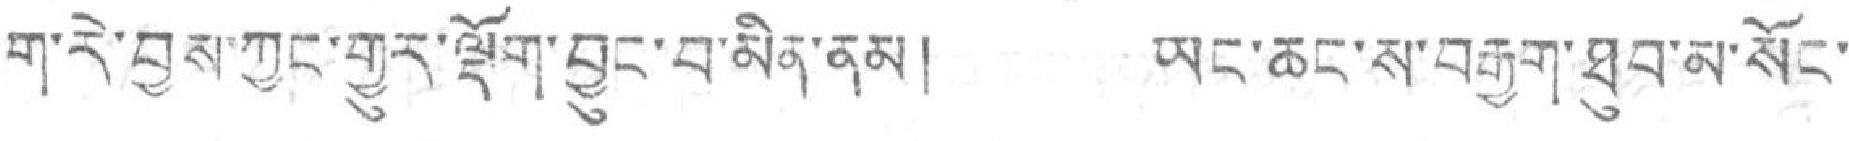ག་རེ་བྱས་ཀྱང་གྱུར་ལྡོག་བྱུང་བ་མིན་ནམ། ཡང་ཆང་ས་བརྒྱག་ཐུབ་མ་སོང་
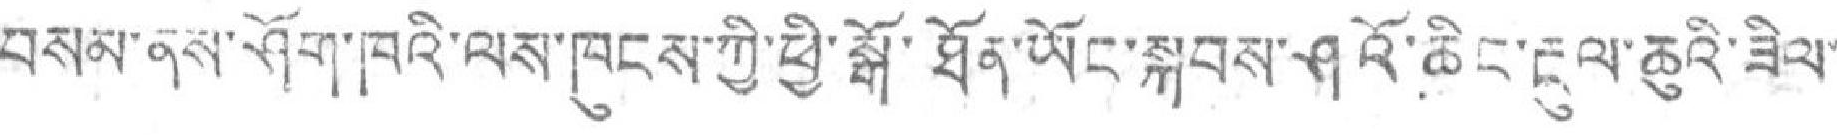བསམ་ནས་ཤོག་ཁའི་ལས་ཁུངས་ཀྱི་ཕྱི་སྒོ་ཐོན་ཡོང་སྐབས་ཤའོ་ཆིང་རྔུལ་ཆུའི་ཟིལ་
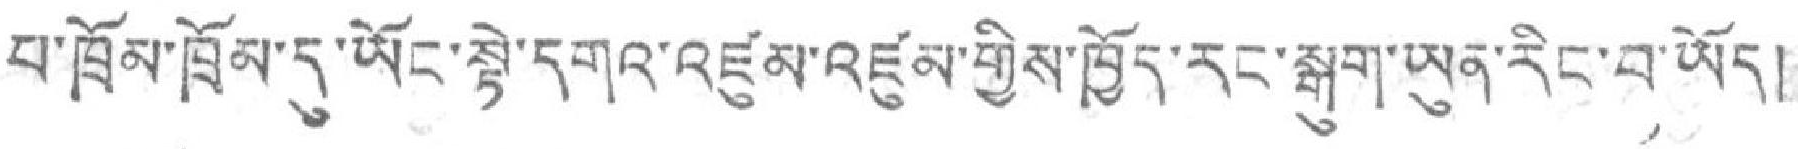པ་ཁྲོམ་ཁྲོམ་དུ་ཡོང་སྟེ་དགའ་འཛུམ་འཛུམ་གྱིས་ཁྱོད་རང་སྒྲུག་ཡུན་རིང་བ་ཡོད།
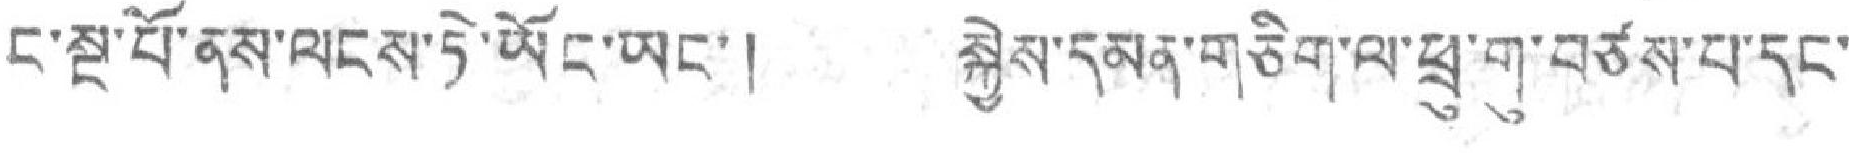ང་སྔ་པོ་ནས་ལངས་ཏེ་ཡོང་ཡང་། སྐྱེས་དམན་གཅིག་ལ་ཕྲུ་གུ་བཙས་པ་དང་
